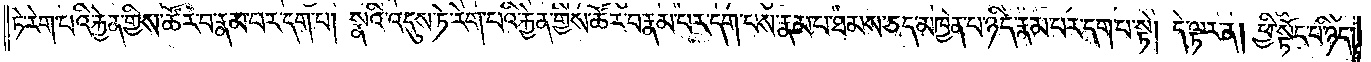ཏེ་རེག་པའི་རྐྱེན་གྱིས་ཚོར་བ་རྣམ་པར་དག་པ། སྣའི་འདུས་ཏེ་རེག་པའི་རྐྱེན་གྱིས་ཚོར་བ་རྣམ་པར་དག་པས་རྣམ་པ་ཐམས་ཅད་མཁྱེན་པ་ཉིད་རྣམ་པར་དག་པ་སྟེ། དེ་ལྟར་ན། ཕྱི་སྟོང་པ་ཉིད་
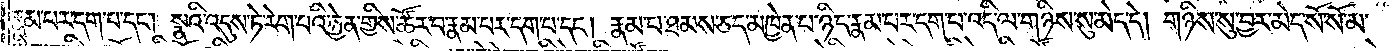རྣམ་པར་དག་པ་དང༌། སྣའི་འདུས་ཏེ་རེག་པའི་རྐྱེན་གྱིས་ཚོར་བ་རྣམ་པར་དག་པ་དང༌། རྣམ་པ་ཐམས་ཅད་མཁྱེན་པ་ཉིད་རྣམ་པར་དག་པ་འདི་ལ་གཉིས་སུ་མེད་དེ། གཉིས་སུ་བྱར་མེད་སོ་སོ་མ་
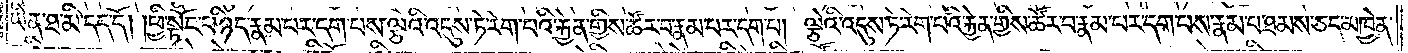ཡིན་ཐ་མི་དད་དོ། །ཕྱི་སྟོང་པ་ཉིད་རྣམ་པར་དག་པས་ལྕེའི་འདུས་ཏེ་རེག་པའི་རྐྱེན་གྱིས་ཚོར་བ་རྣམ་པར་དག་པ། ལྕེའི་འདུས་ཏེ་རེག་པའི་རྐྱེན་གྱིས་ཚོར་བ་རྣམ་པར་དག་པས་རྣམ་པ་ཐམས་ཅད་མཁྱེན་
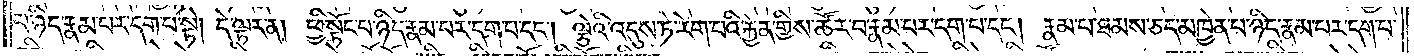པ་ཉིད་རྣམ་པར་དག་པ་སྟེ། དེ་ལྟར་ན། ཕྱི་སྟོང་པ་ཉིད་རྣམ་པར་དག་པ་དང་ལྕེའི་འདུས་ཏེ་རེག་པའི་རྐྱེན་གྱིས་ཚོར་བ་རྣམ་པར་དག་པ་དང༌། རྣམ་པ་ཐམས་ཅད་མཁྱེན་པ་ཉིད་རྣམ་པར་དག་པ་
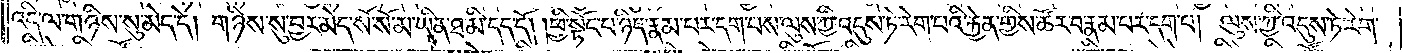འདི་ལ་གཉིས་སུ་མེད་དེ། གཉིས་སུ་བྱར་མེད་སོ་སོ་མ་ཡིན་ཐ་མི་དད་དོ། །ཕྱི་སྟོང་པ་ཉིད་རྣམ་པར་དག་པས་ལུས་ཀྱི་འདུས་ཏེ་རེག་པའི་རྐྱེན་གྱིས་ཚོར་བ་རྣམ་པར་དག་པ་དང༌། ལུས་ཀྱི་འདུས་ཏེ་རེག་
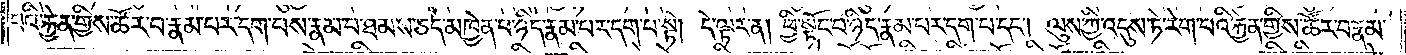པའི་རྐྱེན་གྱིས་ཚོར་བ་རྣམ་པར་དག་པས་རྣམ་པ་ཐམས་ཅད་མཁྱེན་པ་ཉིད་རྣམ་པར་དག་པ་སྟེ། དེ་ལྟར་ན། ཕྱི་སྟོང་པ་ཉིད་རྣམ་པར་དག་པ་དང༌། ལུས་ཀྱི་འདུས་ཏེ་རེག་པའི་རྐྱེན་གྱིས་ཚོར་བ་རྣམ་
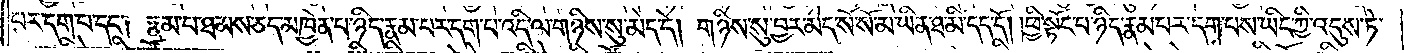པར་དག་པ་དང༌། རྣམ་པ་ཐམས་ཅད་མཁྱེན་པ་ཉིད་རྣམ་པར་དག་པ་འདི་ལ་གཉིས་སུ་མེད་དེ། གཉིས་སུ་བྱར་མེད་སོ་སོ་མ་ཡིན་ཐ་མི་དད་དོ། །ཕྱི་སྟོང་པ་ཉིད་རྣམ་པར་དག་པས་ཡིད་ཀྱི་འདུས་ཏེ་
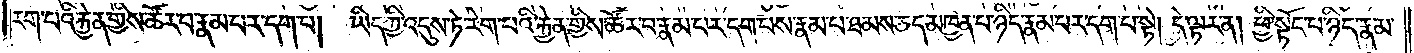རེག་པའི་རྐྱེན་གྱིས་ཚོར་བ་རྣམ་པར་དག་པ། ཡིད་ཀྱི་འདུས་ཏེ་རེག་པའི་རྐྱེན་གྱིས་ཚོར་བ་རྣམ་པར་དག་པས་རྣམ་པ་ཐམས་ཅད་མཁྱེན་པ་ཉིད་རྣམ་པར་དག་པ་སྟེ། དེ་ལྟར་ན། ཕྱི་སྟོང་པ་ཉིད་རྣམ་
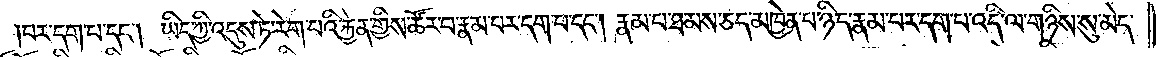པར་དག་པ་དང༌། ཡིད་ཀྱི་འདུས་ཏེ་རེག་པའི་རྐྱེན་གྱིས་ཚོར་བ་རྣམ་པར་དག་པ་དང༌། རྣམ་པ་ཐམས་ཅད་མཁྱེན་པ་ཉིད་རྣམ་པར་དག་པ་འདི་ལ་གཉིས་སུ་མེད་
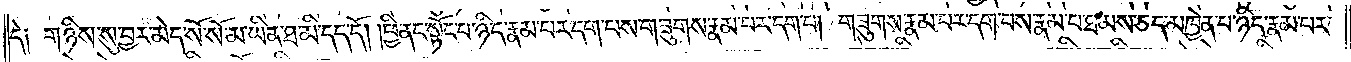དེ༑ གཉིས་སུ་བྱར་མེད་སོ་སོ་མ་ཡིན་ཐ་མི་དད་དོ། །ཕྱི་ནང་སྟོང་པ་ཉིད་རྣམ་པར་དག་པས་གཟུགས་རྣམ་པར་དག་པ། གཟུགས་རྣམ་པར་དག་པས་རྣམ་པ་ཐམས་ཅད་མཁྱེན་པ་ཉིད་རྣམ་པར་
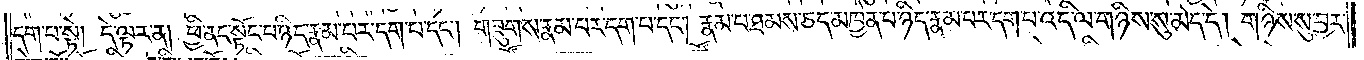དག་པ་སྟེ། དེ་ལྟར་ན། ཕྱི་ནང་སྟོང་པ་ཉིད་རྣམ་པར་དག་པ་དང༌། གཟུགས་རྣམ་པར་དག་པ་དང༌། རྣམ་པ་ཐམས་ཅད་མཁྱེན་པ་ཉིད་རྣམ་པར་དག་པ་འདི་ལ་གཉིས་སུ་མེད་དེ། གཉིས་སུ་བྱར་
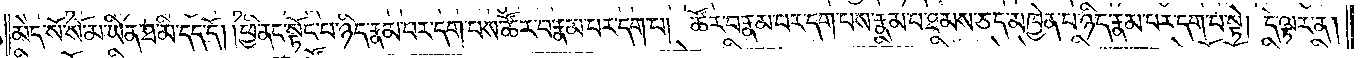མེད་སོ་སོ་མ་ཡིན་ཐ་མི་དད་དོ། །ཕྱི་ནང་སྟོང་པ་ཉིད་རྣམ་པར་དག་པས་ཚོར་བ་རྣམ་པར་དག་པ། ཚོར་བ་རྣམ་པར་དག་པས་རྣམ་པ་ཐམས་ཅད་མཁྱེན་པ་ཉིད་རྣམ་པར་དག་པ་སྟེ། དེ་ལྟར་ན།
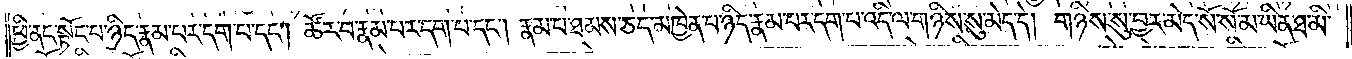ཕྱི་ནང་སྟོང་པ་ཉིད་རྣམ་པར་དག་པ་དང༌། ཚོར་བ་རྣམ་པར་དག་པ་དང༌། རྣམ་པ་ཐམས་ཅད་མཁྱེན་པ་ཉིད་རྣམ་པར་དག་པ་འདི་ལ་གཉིས་སུ་མེད་དེ། གཉིས་སུ་བྱར་མེད་སོ་སོ་མ་ཡིན་ཐ་མི་
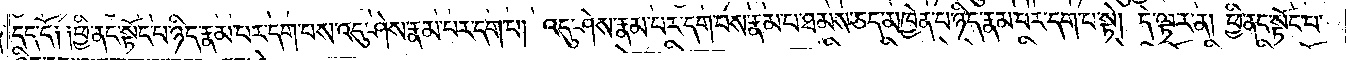དད་དོ། །ཕྱི་ནང་སྟོང་པ་ཉིད་རྣམ་པར་དག་པས་འདུ་ཤེས་རྣམ་པར་དག་པ། འདུ་ཤེས་རྣམ་པར་དག་པས་རྣམ་པ་ཐམས་ཅད་མཁྱེན་པ་ཉིད་རྣམ་པར་དག་པ་སྟེ། དེ་ལྟར་ན། ཕྱི་ནང་སྟོང་པ་
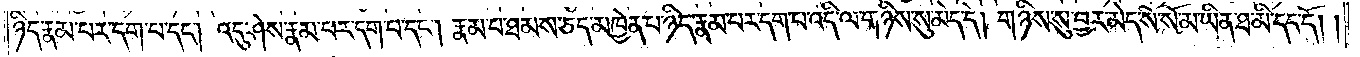ཉིད་རྣམ་པར་དག་པ་དང༌། འདུ་ཤེས་རྣམ་པར་དག་པ་དང༌། རྣམ་པ་ཐམས་ཅད་མཁྱེན་པ་ཉིད་རྣམ་པར་དག་པ་འདི་ལ་གཉིས་སུ་མེད་དེ། གཉིས་སུ་བྱར་མེད་སོ་སོ་མ་ཡིན་ཐ་མི་དད་དོ། །
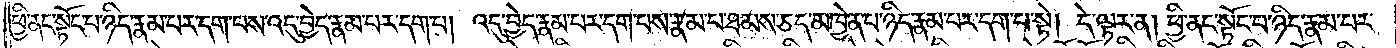ཕྱི་ནང་སྟོང་པ་ཉིད་རྣམ་པར་དག་པས་འདུ་བྱེད་རྣམ་པར་དག་པ། འདུ་བྱེད་རྣམ་པར་དག་པས་རྣམ་པ་ཐམས་ཅད་མཁྱེན་པ་ཉིད་རྣམ་པར་དག་པ་སྟེ། དེ་ལྟར་ན། ཕྱི་ནང་སྟོང་པ་ཉིད་རྣམ་པར་
